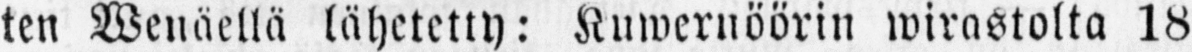ten Wenäellä lähetetty: Kuwernöörin wirastolta 18
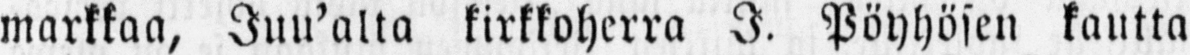markkaa, Juu'alta kirkkoherra I. Pöyhösen kautta
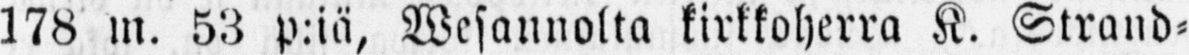178 m. 58 p:iä, Wesannolta kirkkoherra K. Strand-
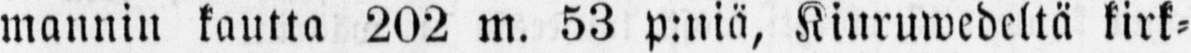mannin kautta 202 m. 53 p:niä, Kiuruwedeltä kirk-
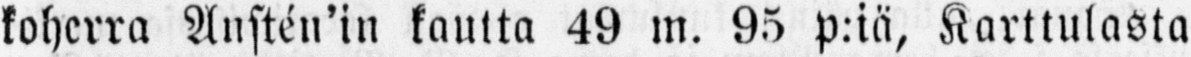koherra Anstén'in kautta 49 m. 95 p:iä, Karttulasta
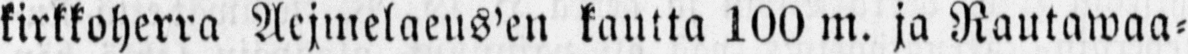kirkkoherra Aejmelaeus'en kautta 100 m. ja Rautawaa-
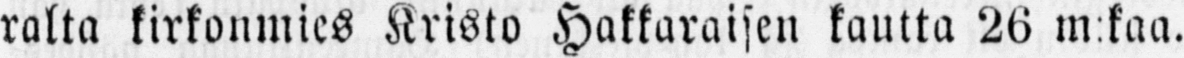ralta kirkonmies Kristo Hakkaraisen kautta 26 m:kaa.
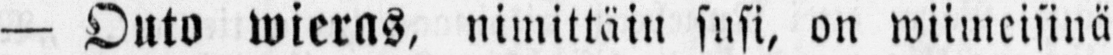— Outo wieras, nimittäin susi, on wiimeisinä
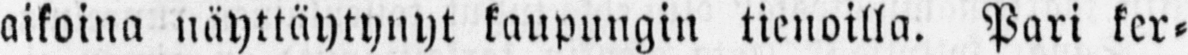aikoina näyttäytynyt kaupungin tienoilla. Pari ker-
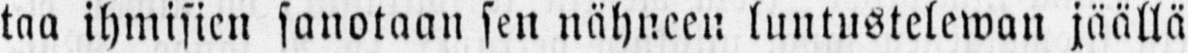taa ihmisien sanotaan sen nähneen luntustelewan jäällä
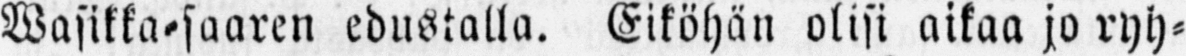Wasikka-saaren edustalla. Eiköhän olisi aikaa jo ryh-
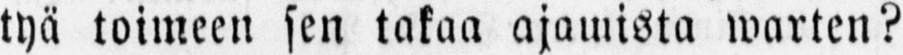tyä toimeen sen takaa ajawista warten?
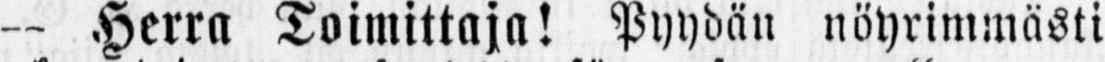-- Herra Toimittaja! Pyydän nöyrimmästi
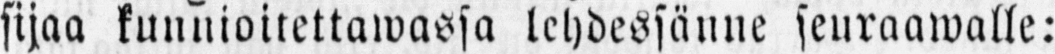sijaa kunnioitettawassa lehdessänne seuraawalle:
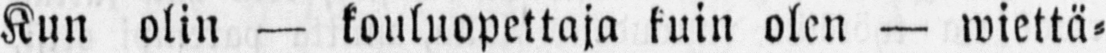Kun olin — kouluopettaja kuin olen — wiettä-
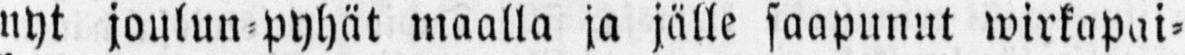nyt joulun pyhät maalla ja jälle saapunut wirkapai-
